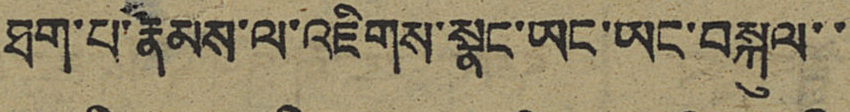ཐག་པ་རྣམས་ལ་འཇིགས་སྣང་ཡང་ཡང་བསྐུལ་་
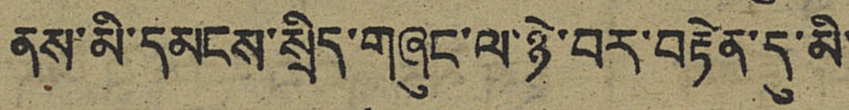ནས་མི་དམངས་སྲིད་གཞུང་ལ་ཉེ་བར་བརྟེན་དུ་མི་
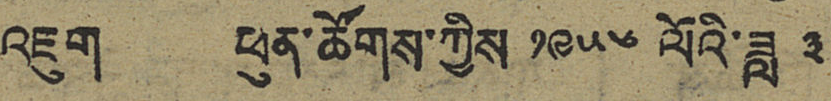འཇུག ཕུན་ཚོགས་ཀྱིས ༡༩༥༦ ལོའི་ཟླ ༣
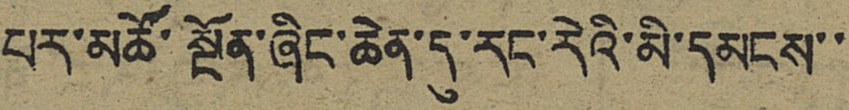པར་མཚོ་སྔོན་ཞིང་ཆེན་དུ་རང་རེའི་མི་དམངས་་
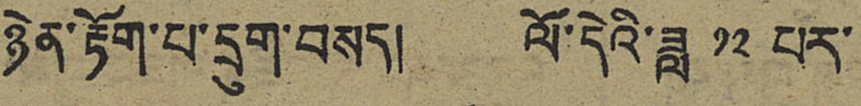ཉེན་རྟོག་པ་དྲུག་བསད། ལོ་དེའི་ཟླ ༡༢ པར་
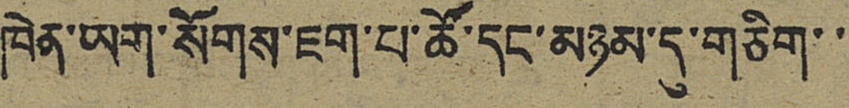ཁེན་ཡག་སོགས་ཇག་པ་ཚོ་དང་མཉམ་དུ་གཅིག་་
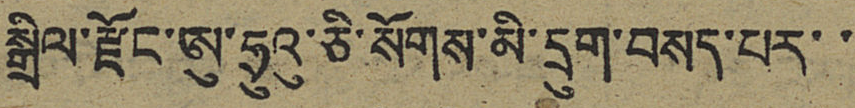སྒྲིལ་རྫོང་ཨུ་ཧྲུའུ་ཅི་སོགས་མི་དྲུག་བསད་པར་་
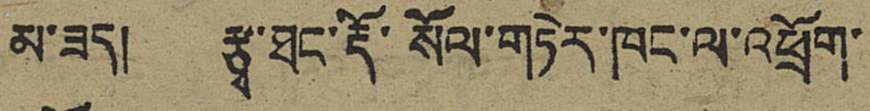མ་ཟད། རྩྭ་ཐང་རྡོ་སོལ་གཏེར་ཁང་ལ་འཕྲོག་
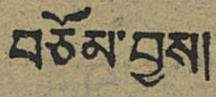བཅོམ་བྱས།
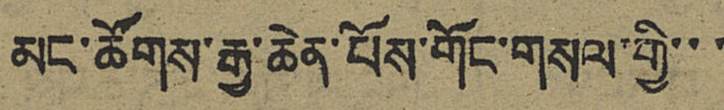མང་ཚོགས་རྒྱ་ཆེན་པོས་གོང་གསལ་གྱི་་་
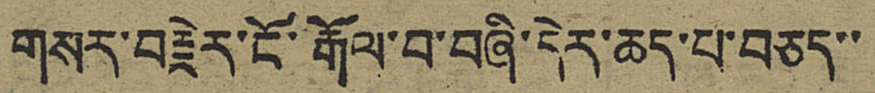གསར་བརྗེར་ངོ་རྒོལ་བ་བཞི་དེར་ཆད་པ་བཅད་་
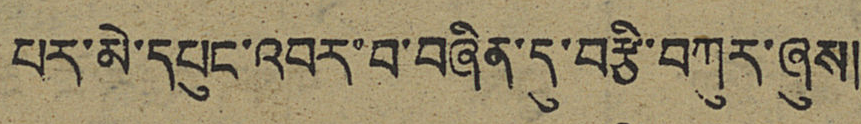པར་མེ་དཔུང་འབར་བ་བཞིན་དུ་བརྩི་བཀུར་ཞུས།
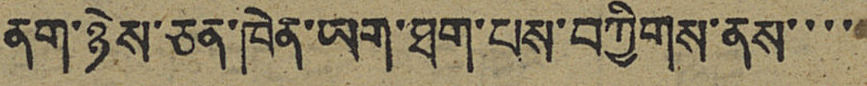ནག་ཉེས་ཅན་ཁེན་ཡག་ཐག་པས་བཀྱིགས་ནས་་་་
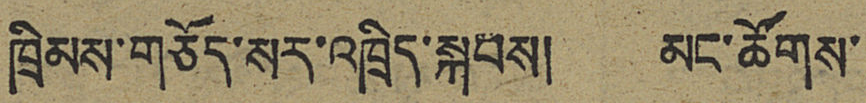ཁྲིམས་གཅོད་སར་འཁྲིད་སྐབས། མང་ཚོགས་
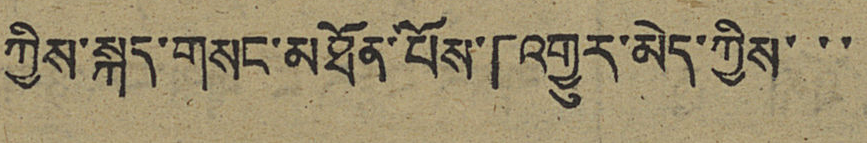ཀྱིས་སྐད་གསང་མཐོན་པོས་「འགྱུར་མེད་ཀྱིས་་་
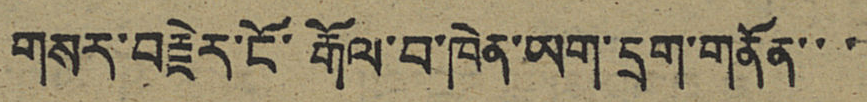གསར་བརྗེར་ངོ་རྒོལ་བ་ཁེན་ཡག་དྲག་གནོན་་་
